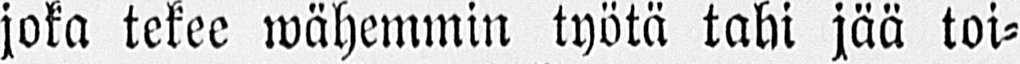joka tekee wähemmin työtä tahi jää toi-
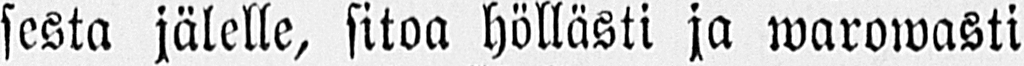sesta jälelle, sitoa höllästi ja warowasti
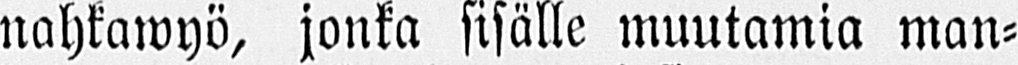nahkawyö, jonka sisälle muutamia man-
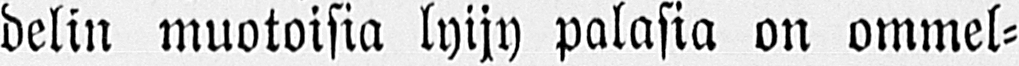delin muotoisia lyijy palasia on ommel-
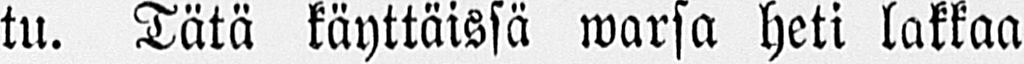tu. Tätä käyttäissä warsa heti lakkaa
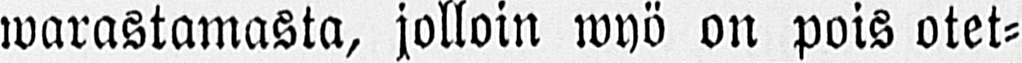warastamasta, jolloin wyö on pois olet-
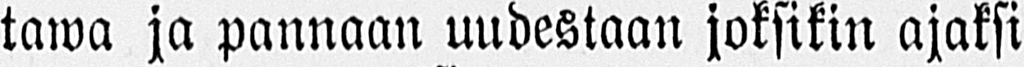tawa ja pannaan uudestaan joksikin ajaksi
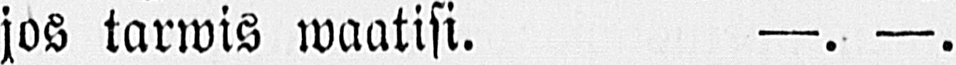jos tarwis waatisi. —. —.
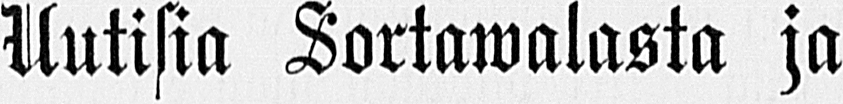Uutisia Sortawalasta ja
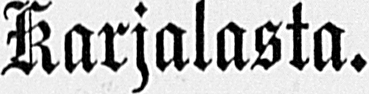Karjalasta.
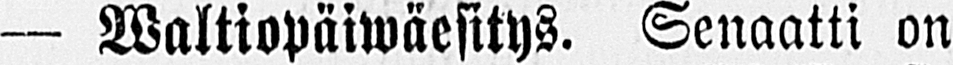— Waltiopäiwäesitys. Senaatti on
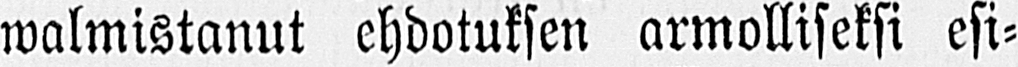walmistanut ehdotuksen armolliseksi esi-
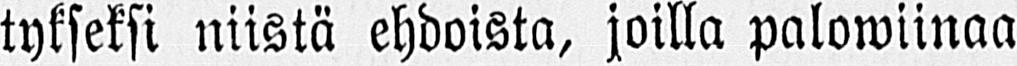tykseksi niistä ehdoista, joilla palowiinaa
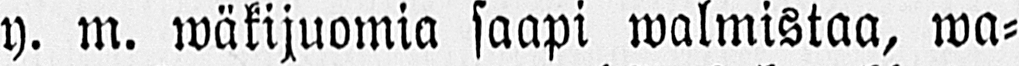y. m. wäkijuomia saapi walmistaa, wa-
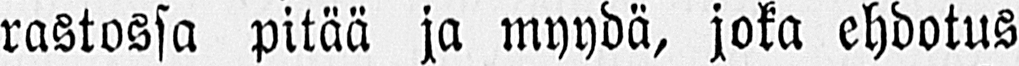rastossa pitää ja myydä, joka ehdotus
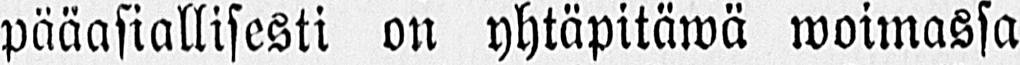pääasiallisesti on yhtäpitäwä woimassa
